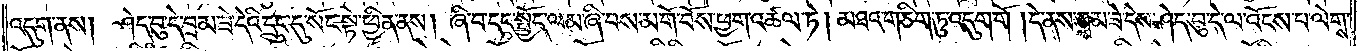འདུག་ནས། ཤེད་བུ་དེ་བྲམ་ཟེ་དེའི་དྲུང་དུ་སོང་སྟེ་ཕྱིན་ནས། ཞི་བ་དང་སྤྱོད་ལམ་ཞི་བས་མགོ་བོས་ཕྱག་འཚལ་ཏེ། མཐའ་གཅིག་ཏུ་འདུག་གོ །དེ་ནས་བྲམ་ཟེ་དེས་ཤེད་བུ་དེ་ལ་འོངས་པ་ལེགས་
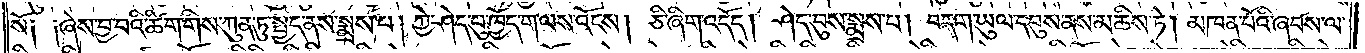སོ། །ཞེས་བྱ་བའི་ཚིག་གིས་ཀུན་ཏུ་སྤྱད་ནས་སྨྲས་པ། ཀྱེ་ཤེད་བུ་ཁྱོད་ག་ལས་འོངས། ཅི་ཞིག་འདོད། ཤེད་བུས་སྨྲས་པ། བདག་ཡུལ་དབུས་ནས་མཆིས་ཏེ། མཁན་པོའི་ཞབས་ལ་
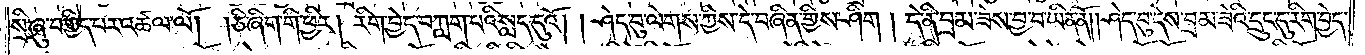སྲི་ཞུ་བགྱིད་པར་འཚལ་ལོ། །ཅི་ཞིག་གི་ཕྱིར། རིག་བྱེད་བཀླག་པའི་སླད་དུའོ། །ཤེད་བུ་ལེགས་ཀྱིས་དེ་བཞིན་གྱིས་ཤིག །དེ་ནི་བྲམ་ཟེས་བྱ་བ་ཡིན་ནོ། །ཤེད་བུ་དེས་བྲམ་ཟེའི་དྲུང་དུ་རིག་བྱེད་
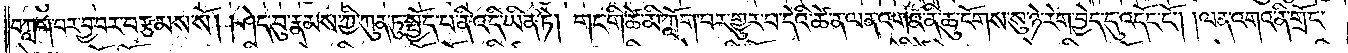བཀླག་པར་བྱ་བར་བརྩམས་སོ། །ཤེད་བུ་རྣམས་ཀྱི་ཀུན་ཏུ་སྤྱོད་པ་ནི་འདི་ཡིན་ཏེ། གང་གི་ཚེ་མི་ཀློག་པར་གྱུར་པ་དེའི་ཚེ་ན་ལན་དགའ་ནི་ཆུ་ངོགས་སུ་ཉེ་རེག་བྱེད་དུ་འདོང་ངོ༌། །ལན་འགའ་ནི་གྲོང་
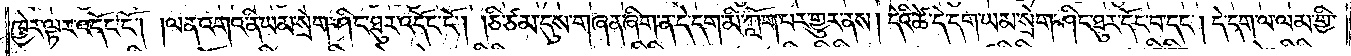ཁྱེར་ལྟར་འདོང་ངོ༌། །ལན་འགའ་ནི་ཡམ་སྲོག་ཤིང་ཐུར་འདོང་ངོ༌། །ཅི་ཙམ་དུས་གཞན་ཞིག་ན་དེ་དག་མི་ཀློག་པར་གྱུར་ནས། དེའི་ཚེ་དེ་དག་ཡམ་སྲེག་ཤིང་ཐུར་དོང་བ་དང༌། དེ་དག་ལ་ལམ་གྱི་
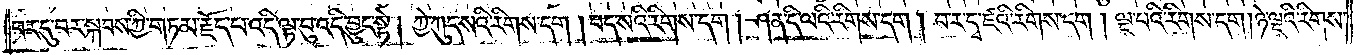བར་དུ་བར་སྐབས་ཀྱི་གཏམ་རྗོད་པ་འདི་ལྟ་བུ་འདི་བྱུང་སྟེ། ཀྱེ་ཀུད་སའི་རིགས་དག །བད་སའི་རིགས་དག །ཤན་དི་ལའི་རིགས་དག །བར་དྭ་ཛའི་རིགས་དག །ལྔ་པའི་རིགས་དག །ཉེ་ལྔའི་རིགས་
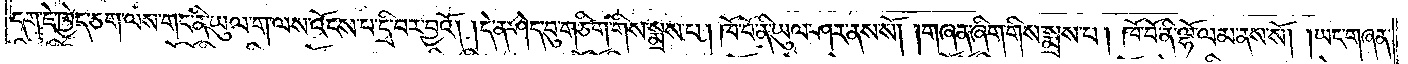དག་ཇེ་ཁྱེད་ཅག་ལས་གང་ནི་ཡུལ་ག་ལས་འོངས་པ་དྲི་བར་བྱའོ། །དེ་ན་ཤེད་བུ་གཅིག་གིས་སྨྲས་པ། ཁོ་བོ་ནི་ཡུལ་ཤར་ནས་སོ། །གཞན་ཞིག་གིས་སྨྲས་པ། ཁོ་བོ་ནི་ལྷོ་ལམ་ནས་སོ། །ཡང་གཞན་
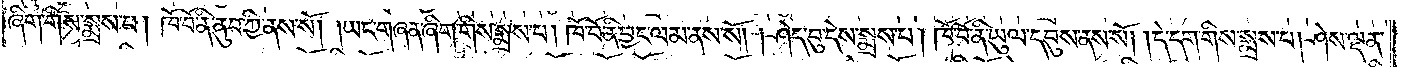ཞིག་གིས་སྨྲས་པ། ཁོ་བོ་ནི་ནུབ་ཀྱི་ནས་སོ། །ཡང་གཞན་ཞིག་གིས་སྨྲས་པ། ཁོ་བོ་ནི་བྱང་ལམ་ནས་སོ། །ཤེད་བུ་དེས་སྨྲས་པ། ཁོ་བོ་ནི་ཡུལ་དབུས་ནས་སོ། །དེ་དག་གིས་སྨྲས་པ། ཤེས་ལྡན་
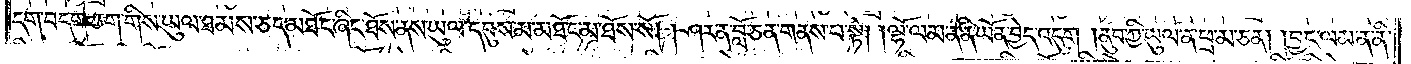དག་བདག་ཅག་གིས་ཡུལ་ཐམས་ཅད་མཐོང་ཞིང་ཐོས་ནས་ཡུལ་དབུས་མ་མཐོང་མ་ཐོས་སོ། །ཤར་ན་བློ་ཅན་གནས་པ་སྟེ། ལྷོ་ལམ་ན་ནི་ཡོན་བྱེད་འདུག །ནུབ་ཀྱི་ཡུལ་ན་ཕྲ་མ་ཅན། །བྱང་ལམ་ན་ནི་
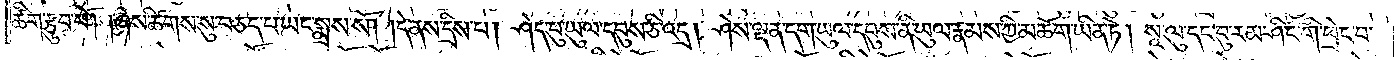ཚིག་རྩུབ་པོ། །ཞེས་ཚིགས་སུ་བཅད་པ་ཡང་སྨྲས་སོ། །དེ་ནས་དྲིས་པ། ཤེད་པུ་ཡུལ་དབུས་ཅི་འདྲ། ཤེས་ལྡན་དག་ཡུལ་དབུས་ནི་ཡུལ་རྣམས་ཀྱི་མཆོག་ཡིན་ཏེ། སཱ་ལུ་དང་བུ་རམ་ཤིང་གི་ཕྲེང་བ་
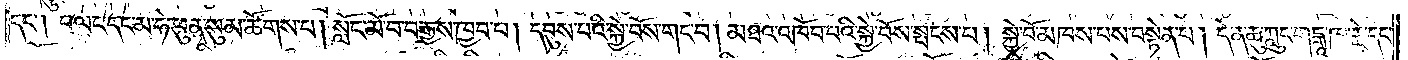དང༌། བ་ལང་དང་མ་ཧེ་ཕུན་སུམ་ཚོགས་པ། སློང་མོ་བ་བརྒྱས་ཁྱབ་པ། དབུས་པའི་སྐྱེ་བོས་གང་བ། མཐའ་འཁོབ་པའི་སྐྱེ་བོས་སྤངས་པ། སྐྱེ་བོ་མཁས་པས་བསྟེན་པ། དེ་ན་ཆུ་ཀླུང་གངྒཱ་ཁ་རྗེ་དང་
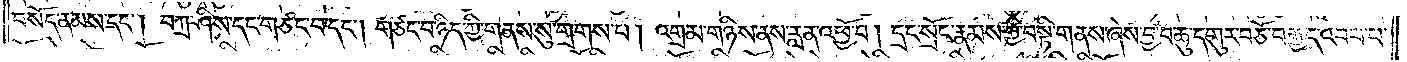བསོད་ནམས་དང༌། བཀྲ་ཤིས་དང་གཙང་བ་དང༌། གཙང་བ་ཉིད་ཀྱི་གནས་སུ་གྲགས་པ། འགྲམ་གཉིས་ནས་རླན་འཕྱོ་བ། དྲང་སྲོང་རྣམས་ཀྱི་བསྟི་གནས་ཞེས་བྱ་བ་ཆུ་དགུར་བཅོ་བརྒྱད་འབབ་པ་
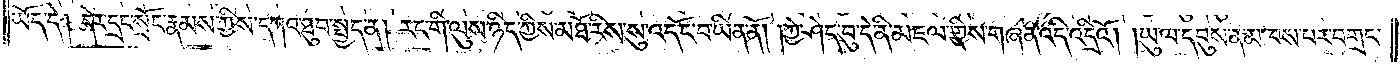ཡོད་དེ། དེར་དྲང་སྲོང་རྣམས་ཀྱིས་དཀའ་ཐུབ་སྤྱད་ན། རང་གི་ལུས་ཉིད་ཀྱིས་མཐོ་རིས་སུ་འདོང་བ་ཡིན་ནོ། །ཀྱེ་ཤེད་བུ་དེ་ནི་མཇལ་གྱིས་གཞན་འདི་འདྲིའོ། །ཡུལ་དབུས་ན་མཁས་པར་བགྲང་
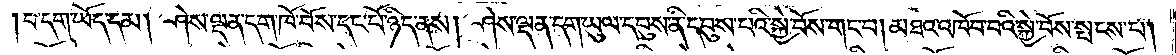བ་དག་ཡོད་དམ། ཤེས་ལྡན་དག་ཁོ་བོས་དང་པོ་ཉིད་ནས། ཤས་ལྡན་དག་ཡུལ་དབུས་ནི་དབུས་པའི་སྐྱེ་བོས་གང་བ། མཐའ་འཁོབ་པའི་སྐྱེ་བོས་སྤངས་པ།
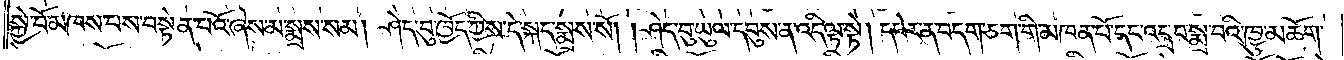སྐྱེ་བོ་མཁས་པས་བསྟེན་པའོ་ཞེས་མ་སྨྲས་སམ། ཤེད་བུ་ཁྱོད་ཀྱིས་དེ་སྐད་སྨྲས་སོ། །ཤེད་བུ་ཡུལ་དབུས་ན་འདི་ལྟ་སྟེ། དཔེར་ན་བདག་ཅག་གི་མཁན་པོ་དང་འདྲ་བ་སྨྲ་བའི་ཁྱུ་མཆོག་
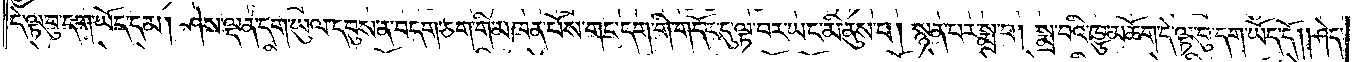དེ་ལྟ་བུ་དག་ཡོད་དམ། ཤེས་ལྡན་དག་ཡུལ་དབུས་ན་བདག་ཅག་གི་མཁན་པོས་གང་དག་གི་གདོང་དུ་ལྟ་བར་ཡང་མི་ནུས་པ། སྙན་པར་སྨྲ་བ། སྨྲ་བའི་ཁྱུ་མཆོག་དེ་ལྟ་བུ་དག་ཡོད་དོ། །ཤེད་
